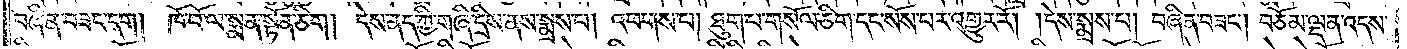བཞིན་བཟང་དག། ཁོ་བོ་ལ་སྨན་སྟོན་ཅིག། དེས་ནད་ཀྱི་གཞི་དྲིས་ནས་སྨྲས་པ། འཕགས་པ། ཐུག་པ་གསོལ་ཅིག་དང་སོས་པར་འགྱུར་རོ། །དེས་སྨྲས་པ། བཞིན་བཟང༌། བཅོམ་ལྡན་འདས་
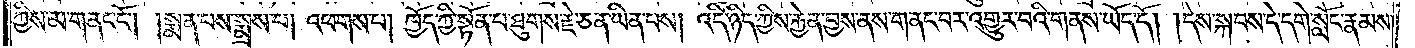ཀྱིས་མ་གནང་ངོ༌། །སྨན་པས་སྨྲས་པ། འཕགས་པ། ཁྱོད་ཀྱི་སྟོན་པ་ཐུགས་རྗེ་ཅན་ཡིན་པས། འདི་ཉིད་ཀྱིས་རྐྱེན་བྱས་ནས་གནང་བར་འགྱུར་བའི་གནས་ཡོད་དོ། །དེས་སྐབས་དེ་དགེ་སློང་རྣམས་
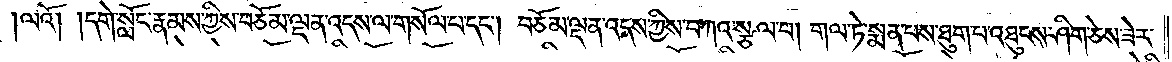ལའོ། །དགེ་སློང་རྣམས་ཀྱིས་བཅོམ་ལྡན་འདས་ལ་གསོལ་པ་དང༌། བཅོམ་ལྡན་འདས་ཀྱིས་བཀའ་སྩལ་པ། གལ་ཏེ་སྨན་པས་ཐུག་པ་འཐུངས་ཤིག་ཅེས་ཟེར་
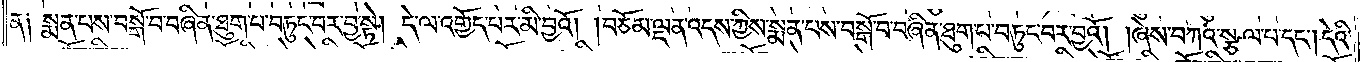ན༑ སྨན་པས་བསྒོ་བ་བཞིན་ཐུག་པ་བཏུང་བར་བྱ་སྟེ། དེ་ལ་འགྱོད་པར་མི་བྱའོ། །བཅོམ་ལྡན་འདས་ཀྱིས་སྨན་པས་བསྒོ་བ་བཞིན་ཐུག་པ་བཏུང་བར་བྱའོ། །ཞེས་བཀའ་སྩལ་པ་དང༌། དེའི་
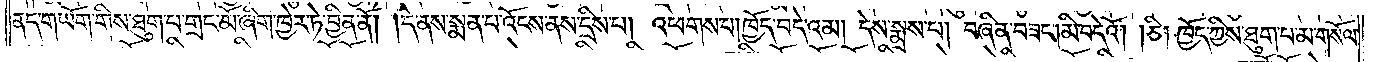ནད་གཡོག་གིས་ཐུག་པ་གྲང་མོ་ཞིག་ཁྱེར་ཏེ་བྱིན་ནོ། །དེ་ནས་སྨན་པ་འོངས་ནས་དྲིས་པ། འཕགས་པ། ཁྱོད་བདེ་འམ། དེས་སྨྲས་པ། བཞིན་བཟང༌། མི་བདེའོ། །ཅི། ཁྱོད་ཀྱིས་ཐུག་པ་མ་གསོལ་
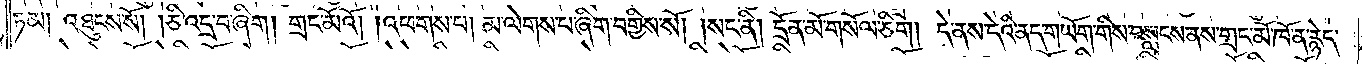ཏམ། འཐུངས་སོ། །ཅི་འདྲ་བ་ཞིག། གྲང་མོའོ། །འཕགས་པ། མ་ལེགས་པ་ཞིག་བགྱིས་སོ། །སང་ནི། དྲོན་མོ་གསོལ་ཅིག། དེ་ནས་དེའི་ནད་གཡོག་གིས་བསླངས་ནས་གྲང་མོ་ཁོ་ན་རྙེད་
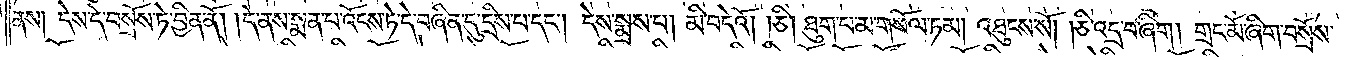ནས། དེས་དེ་བསྲོས་ཏེ་བྱིན་ནོ། །དེ་ནས་སྨན་པ་འོངས་ཏེ་དེ་བཞིན་དུ་དྲིས་པ་དང༌། དེས་སྨྲས་པ། མི་བདེའོ། །ཅི། ཐུག་པ་མ་གསོལ་ཏམ། འཐུངས་སོ། །ཅི་འདྲ་བ་ཞིག། གྲང་མོ་ཞིག་བསྲོས་
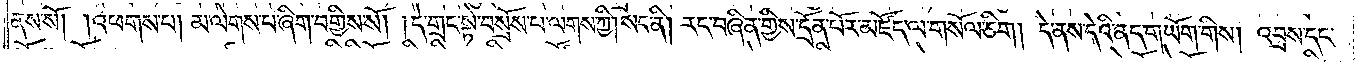ནས་སོ། །འཕགས་པ། མ་ལེགས་པ་ཞིག་བགྱིས་སོ། །དེ་གྲང་སྟེ་བསྲོས་པ་ལགས་ཀྱི། སང་ནི། རང་བཞིན་གྱིས་དྲོན་པོར་མཛོད་ལ་གསོལ་ཅིག། དེ་ནས་དེའི་ནད་གཡོག་གིས། འབྲས་དང་
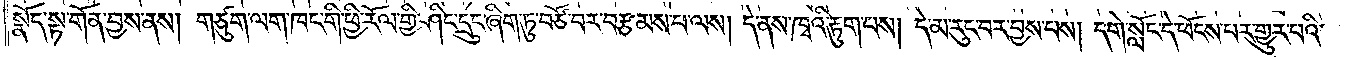སྣོད་སྟ་གོན་བྱས་ནས། གཙུག་ལག་ཁང་གི་ཕྱི་རོལ་གྱི་ཤིང་དྲུང་ཞིག་ཏུ་བཙོ་བར་བརྩམས་པ་ལས། དེ་ནས་ཁྭའི་རྟུག་པས། དེ་མ་རུང་བར་བྱས་པས། དགེ་སློང་དེ་ཕོངས་པར་གྱུར་པའི་
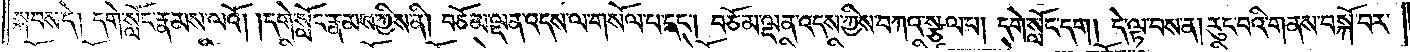སྐབས་དེ། དགེ་སློང་རྣམས་ལའོ། །དགེ་སློང་རྣམས་ཀྱིས་ནི། བཅོམ་ལྡན་འདས་ལ་གསོལ་པ་དང༌། བཅོམ་ལྡན་འདས་ཀྱིས་བཀའ་སྩལ་པ། དགེ་སློང་དག། དེ་ལྟ་བས་ན། རུང་བའི་གནས་བསྐོ་བར་
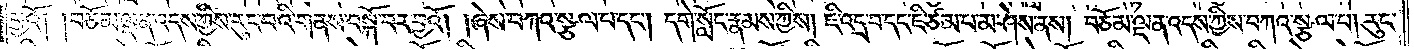བྱའོ། །བཅོམ་ལྡན་འདས་ཀྱིས་རུང་བའི་གནས་བསྐོ་བར་བྱའོ། །ཞེས་བཀའ་སྩལ་པ་དང༌། དགེ་སློང་རྣམས་ཀྱིས། ཇི་འདྲ་བ་དང་ཇི་ཙམ་པ་མ་ཤེས་ནས། བཅོམ་ལྡན་འདས་ཀྱིས་བཀའ་སྩལ་པ། རུང་
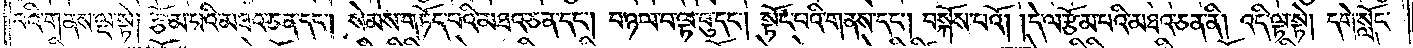བའི་གནས་ལྔ་སྟེ། རྩོམ་པའི་མཐའ་ཅན་དང༌། སེམས་གཏོད་པའི་མཐའ་ཅན་དང༌། བ་ཉལ་བ་ལྟ་བུ་དང༌། སྟོང་པའི་གནས་དང༌། བསྐོས་པའོ། །དེ་ལ་རྩོམ་པའི་མཐའ་ཅན་ནི། འདི་ལྟ་སྟེ། དགེ་སློང་
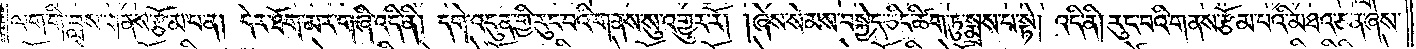ལག་གི་བླས་གནས་རྩོམ་པ་ན། དེར་ཐོག་མར་གཞི་འདི་ནི། དགེ་འདུན་གྱི་རུང་བའི་གནས་སུ་འགྱུར་རོ། །ཞེས་སེམས་བསྐྱེད་ཅིང་ཚིག་ཏུ་སྨྲས་པ་སྟེ། འདི་ནི། རུང་བའི་གནས་རྩོམ་པའི་མཐའ་ཅན་ཞེས་
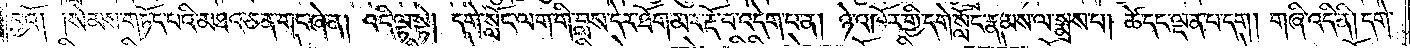བྱའོ། །སེམས་གཏོད་པའི་མཐའ་ཅན་གང་ཞེ་ན། འདི་ལྟ་སྟེ། དགེ་སློང་ལག་གི་བླས་དེར་ཐོག་མར་རྡོ་བ་འདེག་པ་ན། ཉེ་འཁོར་གྱི་དགེ་སློང་རྣམས་ལ་སྨྲས་པ། ཚེ་དང་ལྡན་པ་དག། གཞི་འདི་ནི། དགེ་
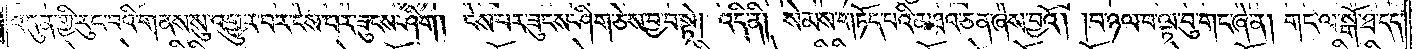འདུན་གྱི་རུང་བའི་གནས་སུ་འགྱུར་བར་ངེས་པར་ཟུངས་ཤིག། ངེས་པར་ཟུངས་ཤིག་ཅེས་བྱ་བ་སྟེ། འདི་ནི། སེམས་གཏོད་པའི་མཐའ་ཅན་ཞེས་བྱའོ། །བ་ཉལ་བ་ལྟ་བུ་གང་ཞེ་ན། གང་ལ་སྒོ་ཐ་དད་
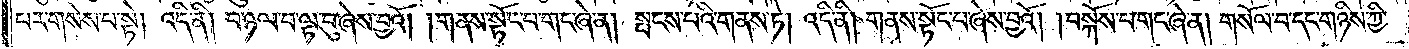པར་གསེས་པ་སྟེ། འདི་ནི། བ་ཉལ་བ་ལྟ་བུ་ཞེས་བྱའོ། །གནས་སྟོང་པ་གང་ཞེ་ན། སྤངས་པའི་གནས་ཏེ། འདི་ནི། གནས་སྟོང་པ་ཞེས་བྱའོ། །བསྐོས་པ་གང་ཞེ་ན། གསོལ་བ་དང་གཉིས་ཀྱི་
